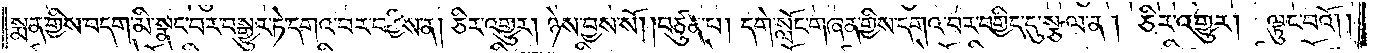སྨན་གྱིས་བདག་མི་སྣང་བར་བསྒྱུར་ཏེ་དགའ་བར་བགྱིས་ན། ཅིར་འགྱུར། ཉེས་བྱས་སོ། །བཙུན་པ། དགེ་སློང་གཞན་གྱིས་དགའ་བར་བགྱིད་དུ་སྩལ་ན། ཅིར་འགྱུར། ལྟུང་བའོ༎
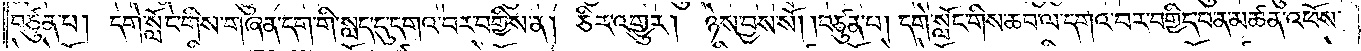བཙུན་པ། དགེ་སློང་གིས་གཞན་དག་གི་སླད་དུ་དགའ་བར་བགྱིས་ན། ཅིར་འགྱུར། ཉེས་བྱས་སོ། །བཙུན་པ། དགེ་སློང་གིས་ཆབ་ལ་དགའ་བར་བགྱིད་པ་ན་མཚན་འཕོས་
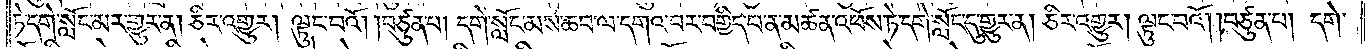ཏེ་དགེ་སློང་མར་གྱུར་ན། ཅིར་འགྱུར། ལྟུང་བའོ། །བཙུན་པ། དགེ་སློང་མས་ཆབ་ལ་དགའ་བར་བགྱིད་པ་ན་མཚན་འཕོས་ཏེ་དགེ་སློང་དུ་གྱུར་ན། ཅིར་འགྱུར། ལྟུང་བའོ། །བཙུན་པ། དགེ་
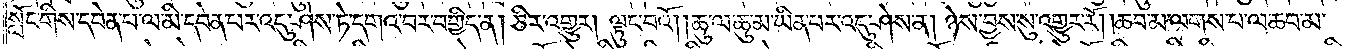སློང་གིས་དབེན་པ་ལ་མི་དབེན་པར་འདུ་ཤེས་ཏེ་དགའ་བར་བགྱིད་ན། ཅིར་འགྱུར། ལྟུང་བའོ། །ཆུ་ལ་ཆུ་མ་ཡིན་པར་འདུ་ཤེས་ན། ཉེས་བྱས་སུ་འགྱུར་རོ། །ཆབ་མ་ལགས་པ་ལ་ཆབ་མ་
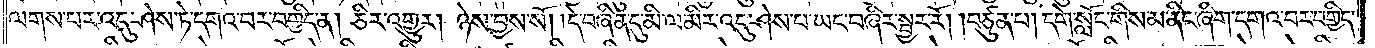ལགས་པར་འདུ་ཤེས་ཏེ་དགའ་བར་བགྱིད་ན། ཅིར་འགྱུར། ཉེས་བྱས་སོ། །དེ་བཞིན་དུ་མི་ལ་མིར་འདུ་ཤེས་པ་ཡང་བཞིར་སྦྱར་རོ། །བཙུན་པ། དགེ་སློང་གིས་མ་ནིང་ཞིག་དགའ་བར་བགྱིད་
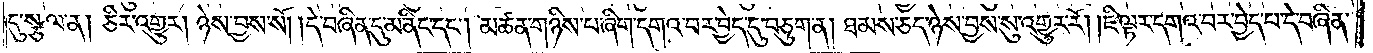དུ་སྩལ་ན། ཅིར་འགྱུར། ཉེས་བྱས་སོ། །དེ་བཞིན་དུ་མ་ནིང་དང༌། མཚན་གཉིས་པ་ཞིག་དགའ་བར་བྱེད་དུ་བཅུག་ན། ཐམས་ཅད་ཉེས་བྱས་སུ་འགྱུར་རོ། །ཇི་ལྟར་དགའ་བར་བྱེད་པ་དེ་བཞིན་
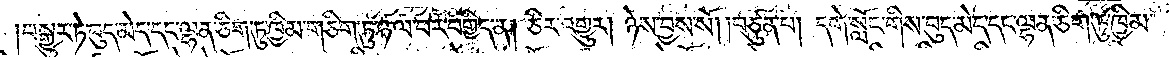།བསྒྱུར་ཏེ་བུད་མེད་དང་ལྷན་ཅིག་ཏུ་ཁྱིམ་གཅིག་ཏུ་ཉལ་བར་བགྱིད་ན། ཅིར་འགྱུར། ཉེས་བྱས་སོ། །བཙུན་པ། དགེ་སློང་གིས་བུད་མེད་དང་ལྷན་ཅིག་ཏུ་ཁྱིམ་
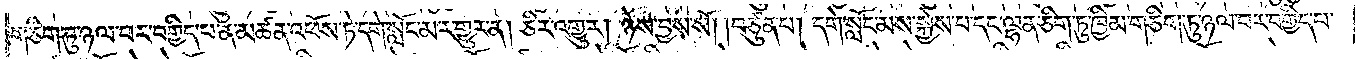གཅིག་ཏུ་ཉལ་བར་བགྱིད་པ་ན་མཚན་འཕོས་ཏེ་དགེ་སློང་མར་གྱུར་ན། ཅིར་འགྱུར། ཉེས་བྱས་སོ། །བཙུན་པ། དགེ་སློང་མས་སྐྱེས་པ་དང་ལྷན་ཅིག་ཏུ་ཁྱིམ་གཅིག་ཏུ་ཉལ་བར་བགྱིད་པ་
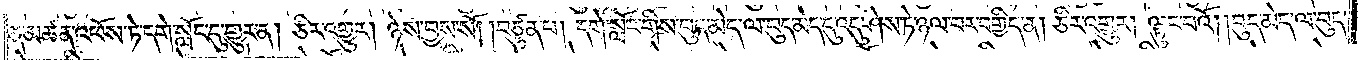ན་མཚན་འཕོས་ཏེ་དགེ་སློང་དུ་གྱུར་ན། ཅིར་འགྱུར། ཉེས་བྱས་སོ། །བཙུན་པ། དགེ་སློང་གིས་བུད་མེད་ལ་བུད་མེད་དུ་འདུ་ཤེས་ཏེ་ཉལ་བར་བགྱིད་ན། ཅིར་འགྱུར། ལྟུང་བའོ། །བུད་མེད་ལ་བུད་
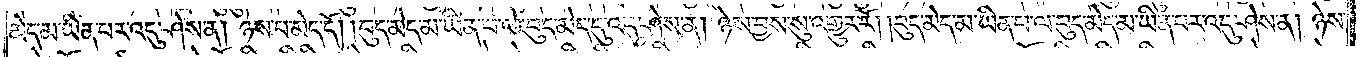མེད་མ་ཡིན་པར་འདུ་ཤེས་ན། ཉེས་པ་མེད་དོ། །བུད་མེད་མ་ཡིན་པ་ལ་བུད་མེད་དུ་འདུ་ཤེས་ན། ཉེས་བྱས་སུ་འགྱུར་རོ། །བུད་མེད་མ་ཡིན་པ་ལ་བུད་མེད་མ་ཡིན་པར་འདུ་ཤེས་ན། ཉེས་
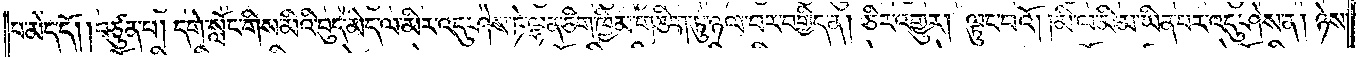པ་མེད་དོ། །བཙུན་པ། དགེ་སློང་གིས་མིའི་བུད་མེད་ལ་མིར་འདུ་ཤེས་ཏེ་ལྷན་ཅིག་ཁྱིམ་གཅིག་ཏུ་ཉལ་བར་བགྱིད་ན། ཅིར་འགྱུར། ལྟུང་བའོ། །མི་ལ་མི་མ་ཡིན་པར་འདུ་ཤེས་ན། ཉེས་
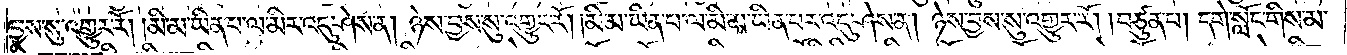བྱས་སུ་འགྱུར་རོ། །མི་མ་ཡིན་པ་ལ་མིར་འདུ་ཤེས་ན། ཉེས་བྱས་སུ་འགྱུར་རོ། །མི་མ་ཡིན་པ་ལ་མི་མ་ཡིན་པར་འདུ་ཤེས་ན། ཉེས་བྱས་སུ་འགྱུར་རོ། །བཙུན་པ། དགེ་སློང་གིས་མ་
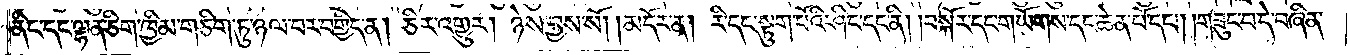ནིང་དང་ལྷན་ཅིག་ཁྱིམ་གཅིག་ཏུ་ཉལ་བར་བགྱིད་ན། ཅིར་འགྱུར། ཉེས་བྱས་སོ། །མདོར་ན། རི་དང་སྟུག་པོའི་ཤིང་དང་ནི། །བསྐོར་དང་གཡོགས་དང་ཆེན་པོ་དང༌། །གཟུང་བ་དེ་བཞིན་
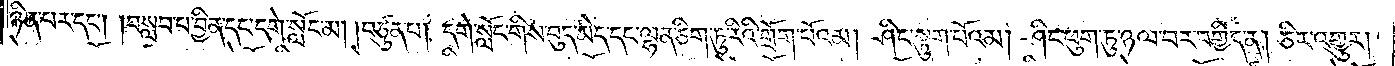ཉིན་པར་དང༌། །བསླབ་པ་བྱིན་དང་དགེ་སློང་མ། །བཙུན་པ། དགེ་སློང་གིས་བུད་མེད་དང་ལྷན་ཅིག་ཏུ་རིའི་གྲོག་པོའམ། ཤིང་སྟུག་པོའམ། ཤིང་ཕུག་ཏུ་ཉལ་བར་བགྱིད་ན། ཅིར་འགྱུར།
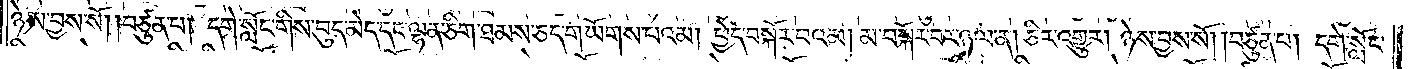ཉེས་བྱས་སོ། །བཙུན་པ། དགེ་སློང་གིས་བུད་མེད་དང་ལྷན་ཅིག་ཐམས་ཅད་གཡོགས་པའམ། ཕྱེད་བསྐོར་བའམ། མ་བསྐོར་བར་ཉལ་ན། ཅིར་འགྱུར། ཉེས་བྱས་སོ། །བཙུན་པ། དགེ་སློང་
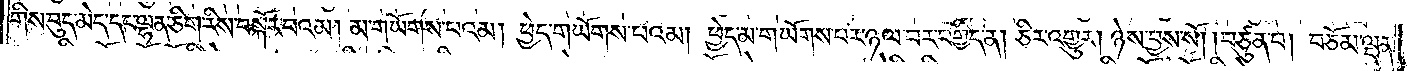གིས་བུད་མེད་དང་ལྷན་ཅིག་རིས་བསྐོར་བའམ། མ་གཡོགས་པའམ། ཕྱེད་གཡོགས་པའམ། ཕྱེད་མ་གཡོགས་པར་ཉལ་བར་བགྱིད་ན། ཅིར་འགྱུར། ཉེས་བྱས་སོ། །བཙུན་པ། བཅོམ་ལྡན་
